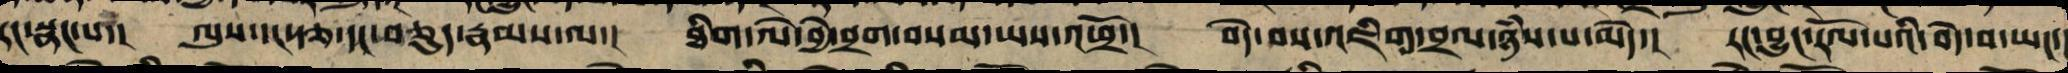རང་སྣང་བ་། ལུས་དང་རྩ་དང་བཅུད་རྣམས་ལ་། ཐིག་ལེ་བྱེ་བྲག་བསམ་ཡས་འཕྲོ་། བདེ་བས་འཇིག་བྲལ་ཉཾས་པ་མེད་། རང་བྱུང་རོལ་པའི་བདེ་བ་ཡང་
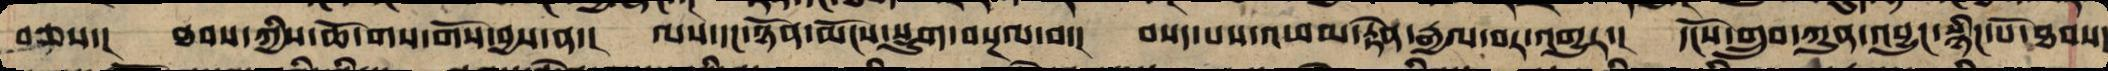བཅས་། ཐབས་ཀྱི་ཆོ་གས་གསོ་བྱས་ན་། ལས་དང་ཉོན་མོངས་སྡུག་བསྔལ་བ་། བསད་པས་འཕམ་རྟེན་རྒྱལ་བར་འགྱུར་། དངོས་གྲུབ་ཀུན་འབྱུང་སྙིང་པོ་ཐབས་
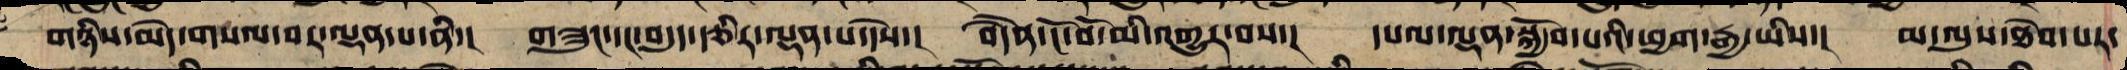གཉིས་མེད་གསལ་བར་ལྡན་པ་ནི་། གཟུང་དང་བདུད་རྩིར་ལྡན་པ་དེས་། བདཻན་ངོ་བོ་མི་འགྱུར་བ་། དཔལ་ལྡན་སྐྱོབ་པའི་ཕྱག་རྒྱ་ཡིས་། མ་ལུས་ཐེབ་པར་
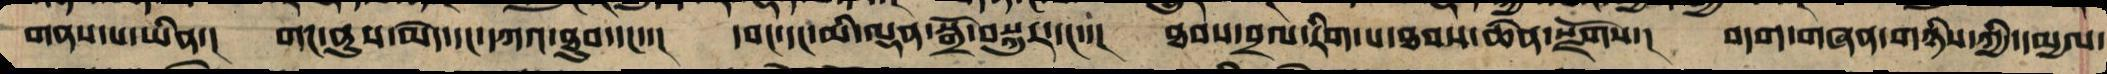གནས་པ་ཡིན་། གང་ནུས་མེད་དང་དཀའ་ཐུབ་དང་་། དབང་དང་མི་ལྡན་སྒྲོ་སྐུར་དང་་། ཐབས་བྲལ་རིག་པ་ཐབས་ཆེན་སྫོགས་། བདག་གཞན་གཉིས་ཀྱི་དམྱལ་
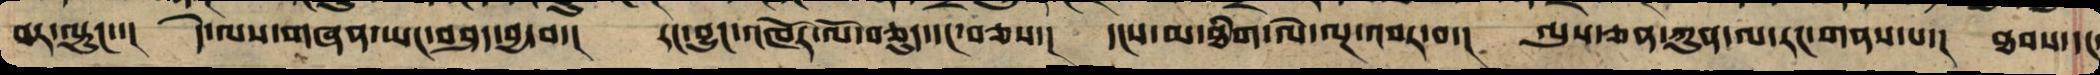བར་ལྟུང་་། དེ་ལས་གཞན་ཡང་བཤད་བྱ་བ་། རང་བྱུང་འཁོར་ལོ་བཅུད་དང་བཅས་། དངས་མ་ཐིག་ལེ་ལྔ་འབར་བ་། ལུས་ཅན་ཀུན་ལ་རང་གནས་པ་། ཐབས་དང
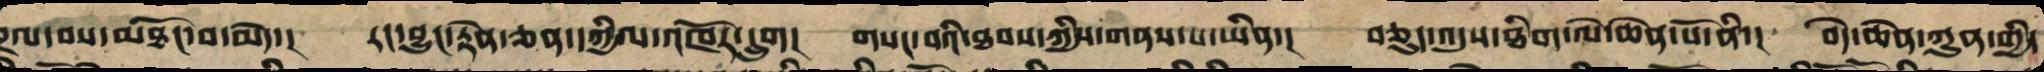བྲལ་བས་མཐོང་བ་མེད་། རང་བྱུང་རྟེན་ཅན་དཀྱིལ་འཁོར་དྲུག། གསང་བའི་ཐབས་ཀྱིས་གནས་པ་ཡིན་། བཅུད་འདུས་ཐིག་ལེ་ཆེན་པོ་ནི་། བདེ་ཆེན་ཀུན་གྱི་
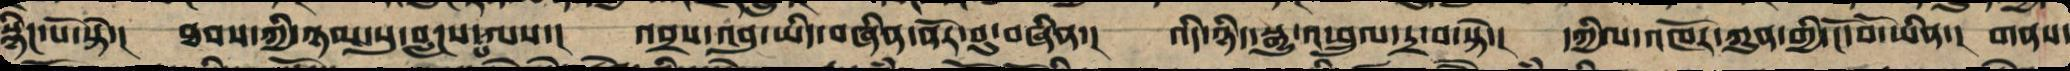སྙིང་པོ་སྟེ་། ཐབས་ཀྱི་ཉམ་སུ་བླངས་པ་ལས་། འབྲས་བུ་ཡིད་བཞིན་ནོར་བུ་བཞིན་། འདི་ཉིད་སྒྱུ་འཕྲུལ་དྲ་བ་སྟེ་། དཀྱིལ་འཁོར་ཀུན་གྱི་ངོ་བོ་ཡིན་། གནས་
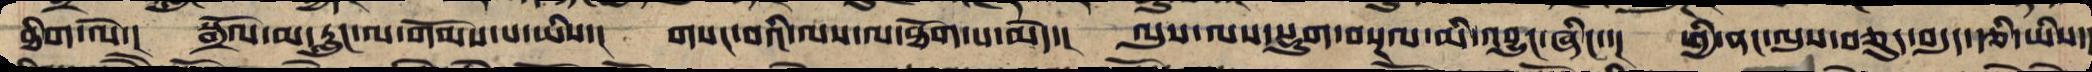ཐིག་ལེ་། སྒྲོལ་མ་རླུང་ལ་གོམས་པ་ཡིས་། གསང་བའི་ལས་ལ་ཐོགས་པ་མེད་། ལུས་ལ་སྡུག་བསྔལ་མི་འབྱུང་ཞིང་་། ཕྱི་ནང་ལུས་བཅུད་བདུད་རྩི་ཡིས་
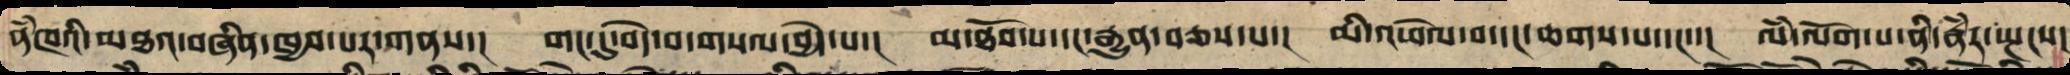ནཾཁའི་མཐའ་བཞིན་ཁྱབ་པར་གསལ་། གང་དུ་འཕེལ་བ་གསལ་བྱེད་པ་། མ་ཐོབ་པ་དང་རྒྱུན་བཅས་པ་། མི་འཕེལ་བ་དང་ཆགས་པ་དང་་། ལཾ་ལོག་པ་ནི་རྣཾར་སྤངས་
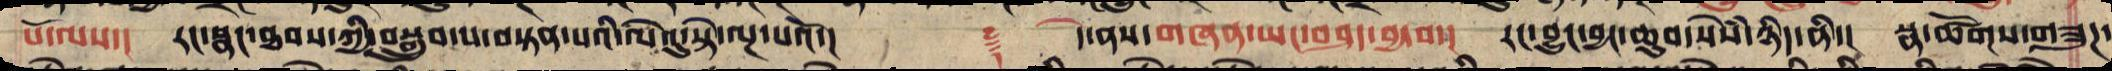པོ་ལས་། རང་སྣང་ཐབས་ཀྱིས་སྒྲུབ་པ་བསྟན་པའི་ལེའུ་སྟེ་ལྔ་པའོ་།། ༈ དེ་ནས་གཞན་ཡང་བཤད་བྱ་བ་། རང་བྱུང་བྱང་ཆུབ་སེཾས་ཉིད་ནི་། སྣ་ཚོགས་གཟུཌ་
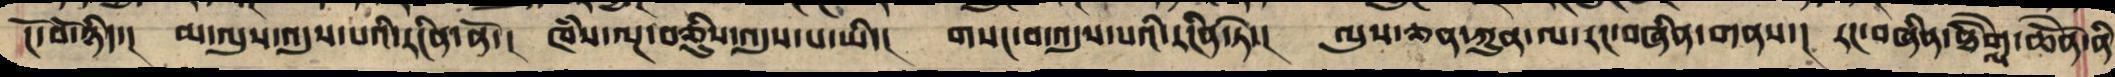ངོ་བོ་ཉིད་། མ་ལུས་འདུས་པའི་རངིན་ནོ་། ཁཾས་ལྔ་བཅིུས་འདུས་པ་ཡི་། གསང་བ་འདུས་པའི་རངིན་ཏེ་། ལུས་ཅན་ཀུན་ལ་རང་བཞིན་གནས་། རང་བཞིན་ཐིགེ་ཆེནོ་ནི
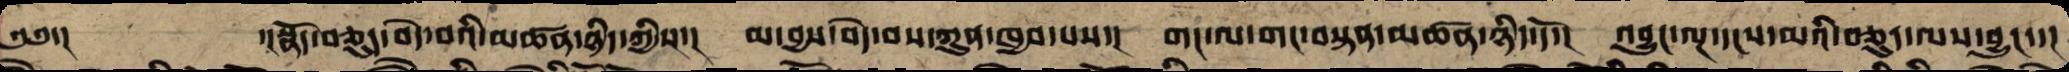༄༅་། ་།སྣོད་བཅུད་བདེ་བའི་མཚན་ཉིད་ཀྱིས་། མ་བྱས་བདེ་བས་ཀུན་ཁྱབ་པས་། གང་ལ་གང་བསྟན་མཚན་ཉིད་དོ་། འབྱུང་ལྔ་དངས་མའི་བཅུད་ལས་བྱུང་་།
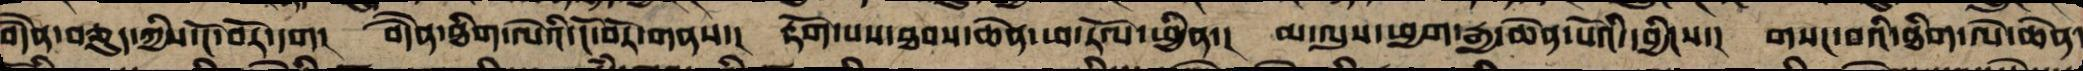བདཻན་བཅུད་ཀྱི་ངོ་བོར་དག། བདཻན་ཐིག་ལེའི་ངོ་བོར་གནས་། རྟོགས་པས་ཐབས་ཆེན་ཕ་རོལ་ཕྱིན་། མ་ལུས་ཕྱག་རྒྱ་ཆེན་པོའི་དབྱིངས་། གསང་བའི་ཐིག་ལེ་ཆེན་
